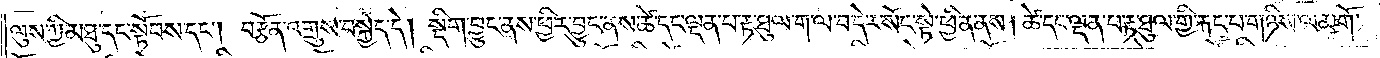ལུས་ཀྱི་མཐུ་དང་སྟོབས་དང༌། བརྩོན་འགྲུས་བསྐྱེད་དེ། སྡིག་བྱུང་ནས་ཕྱིར་བྱུང་ནས་ཚེ་དང་ལྡན་པ་རྟ་ཐུལ་ག་ལ་བ་དེར་སོང་སྟེ་ཕྱིན་ནས། ཚེ་དང་ལྡན་པ་རྟ་ཐུལ་གྱི་རྐང་པ་གཉིས་ལ་མགོ་
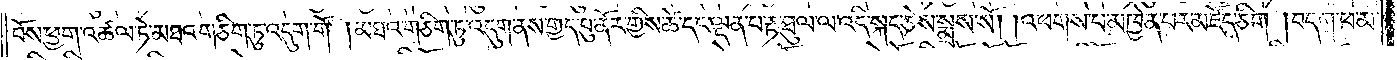བོས་ཕྱག་འཚལ་ཏེ་མཐའ་གཅིག་ཏུ་འདུག་གོ །མཐའ་གཅིག་ཏུ་འདུག་ནས་གྱད་བུ་ནོར་གྱིས་ཚེ་དང་ལྡན་པ་རྟ་ཐུལ་ལ་འདི་སྐད་ཅེས་སྨྲས་སོ། །འཕགས་པ་མཁྱེན་པར་མཛོད་ཅིག །བདག་ཕ་མ་
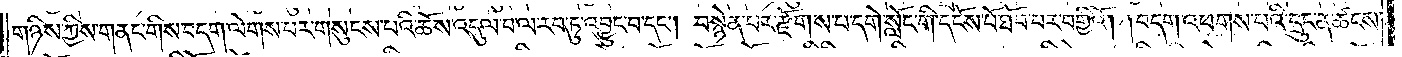གཉིས་ཀྱིས་གནང་གིས་བདག་ལེགས་པར་གསུངས་པའི་ཆོས་འདུལ་བ་ལ་རབ་ཏུ་འབྱུང་བ་དང༌། བསྙེན་པར་རྫོགས་པ་དགེ་སློང་གི་དངོས་པོ་ཐོབ་པར་བགྱིའོ། །བདག་འཕགས་པའི་དྲུང་ན་ཚངས་
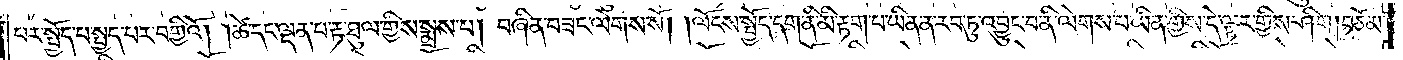པར་སྤྱོད་པ་སྤྱད་པར་བགྱིའོ། །ཚེ་དང་ལྡན་པ་རྟ་ཐུལ་གྱིས་སྨྲས་པ། བཞིན་བཟང་ལེགས་སོ། །ལོངས་སྤྱོད་དག་ནི་མི་རྟག་པ་ཡིན་ན་རབ་ཏུ་འབྱུང་བ་ནི་ལེགས་པ་ཡིན་གྱིས་དེ་ལྟར་གྱིས་ཤིག །བཅོམ་
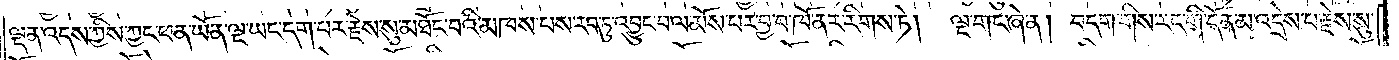ལྡན་འདས་ཀྱིས་ཀྱང་ཕན་ཡོན་ལྔ་ཡང་དག་པར་རྗེས་སུ་མཐོང་བའི་མཁས་པས་རབ་ཏུ་འབྱུང་བ་ལ་མོས་པར་བྱ་བ་ཁོ་ནར་རིགས་ཏེ། ལྔ་གང་ཞེ་ན། བདག་གིས་རང་གི་དོན་མ་འདྲེས་པ་རྗེས་སུ་
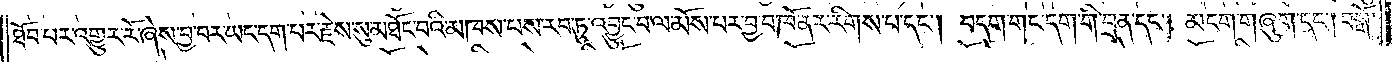ཐོབ་པར་འགྱུར་རོ་ཞེས་བྱ་བར་ཡང་དག་པར་རྗེས་སུ་མཐོང་བའི་མཁས་པས་རབ་ཏུ་འབྱུང་བ་ལ་མོས་པར་བྱ་བ་ཁོ་ནར་རིགས་པ་དང༌། བདག་གང་དག་གི་བྲན་དང༌། མངག་གཞུག་དང༌། བསྒོ་
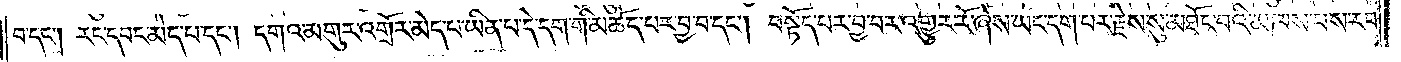བ་དང༌། རང་དབང་མེད་པ་དང༌། དགའ་མགུར་འགྲོར་མེད་པ་ཡིན་པ་དེ་དག་གི་མཆོད་པར་བྱ་བ་དང༌། བསྟོད་པར་བྱ་བར་འགྱུར་རོ་ཞེས་ཡང་དག་པར་རྗེས་སུ་མཐོང་བའི་མཁས་པས་རབ་
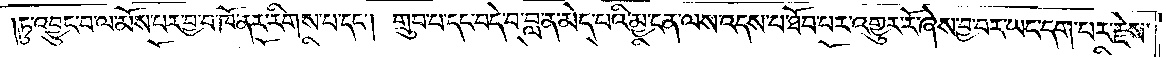ཏུ་འབྱུང་བ་ལ་མོས་པར་བྱ་བ་ཁོ་ནར་རིགས་པ་དང༌། གྲུབ་པ་དང་བདེ་བ་བླ་ན་མེད་པའི་མྱ་ངན་ལས་འདས་པ་ཐོབ་པར་འགྱུར་རོ་ཞེས་བྱ་བར་ཡང་དག་པར་རྗེས་
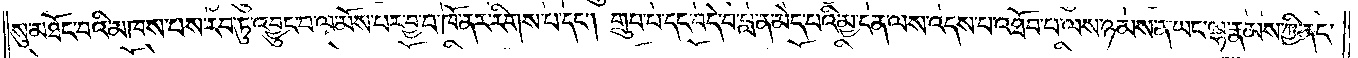སུ་མཐོང་བའི་མཁས་པས་རབ་ཏུ་འབྱུང་བ་ལ་མོས་པར་བྱ་བ་ཁོ་ནར་རིགས་པ་དང༌། གྲུབ་པ་དང་བདེ་བ་བླ་ན་མེད་པའི་མྱ་ངན་ལས་འདས་པ་འཐོབ་པ་ལས་ཉམས་ན་ཡང་ལྷ་རྣམས་ཀྱི་ནང་
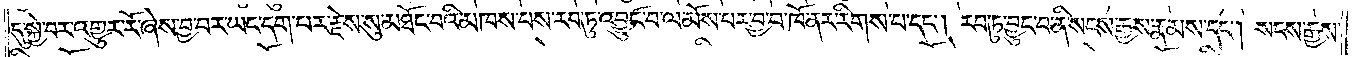དུ་སྐྱེ་བར་འགྱུར་རོ་ཞེས་བྱ་བར་ཡང་དག་པར་རྗེས་སུ་མཐོང་བའི་མཁས་པས་རབ་ཏུ་འབྱུང་བ་ལ་མོས་པར་བྱ་བ་ཁོ་ནར་རིགས་པ་དང༌། རབ་ཏུ་བྱུང་བ་ནི་སངས་རྒྱས་རྣམས་དང༌། སངས་རྒྱས་
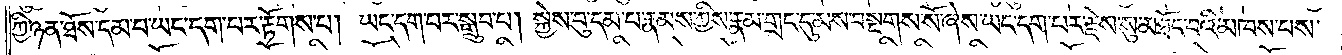ཀྱི་ཉན་ཐོས་དམ་པ་ཡང་དག་པར་རྟོགས་པ། ཡང་དག་པར་སྒྲུབ་པ། སྐྱེས་བུ་དམ་པ་རྣམས་ཀྱིས་རྣམ་གྲང་དུ་མས་བསྔགས་སོ་ཞེས་ཡང་དག་པར་རྗེས་སུ་མཐོང་བའི་མཁས་པས་
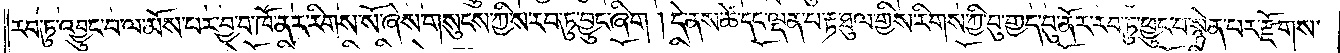རབ་ཏུ་འབྱུང་བ་ལ་མོས་པར་བྱ་བ་ཁོ་ནར་རིགས་སོ་ཞེས་གསུངས་ཀྱིས་རབ་ཏུ་བྱུང་ཞིག །དེ་ནས་ཚེ་དང་ལྡན་པ་རྟ་ཐུལ་གྱིས་རིགས་ཀྱི་བུ་གྱད་བུ་ནོར་རབ་ཏུ་ཕྱུང་བ་སྙེན་པར་རྫོགས་
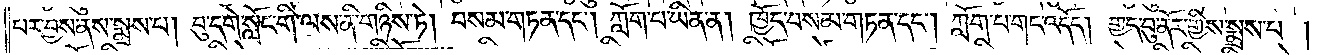པར་བྱས་ནས་སྨྲས་པ། བུ་དགེ་སློང་གི་ལས་ནི་གཉིས་ཏེ། བསམ་གཏན་དང༌། ཀློག་པ་ཡིན་ན། ཁྱོད་བསམ་གཏན་དང༌། ཀློག་པ་གང་འདོད། གྱད་བུ་ནོར་གྱིས་སྨྲས་པ།
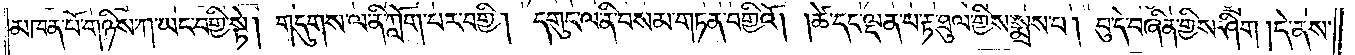མཁན་པོ་གཉིས་ཀ་ཡང་བགྱི་སྟེ། གདུགས་ལ་ནི་ཀློག་པར་བགྱི། དགུང་ལ་ནི་བསམ་གཏན་བགྱིའོ། །ཚེ་དང་ལྡན་པ་རྟ་ཐུལ་གྱིས་སྨྲས་པ། བུ་དེ་བཞིན་གྱིས་ཤིག །དེ་ནས་
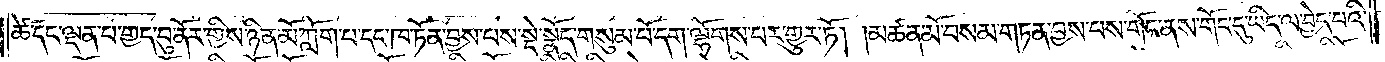ཚེ་དང་ལྡན་པ་གྱད་བུ་ནོར་གྱིས་ཉིན་མོ་ཀློག་པ་དང་ཁ་ཏོན་བྱས་པས་སྡེ་སྣོད་གསུམ་པོ་དག་ལྷོགས་པར་གྱུར་ཏོ། །མཚན་མོ་བསམ་གཏན་བྱས་པས་གོང་ནས་གོང་དུ་ཡིད་ལ་བྱེད་པའི་
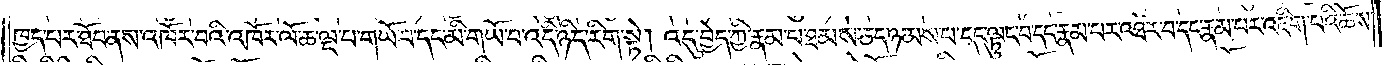ཁྱད་པར་ཐོབ་ནས་འཁོར་བའི་འཁོར་ལོ་ཆ་ལྔ་པ་གཡོ་བ་དང་མི་གཡོ་བ་འདི་ཉིད་རིག་སྟེ། འདུ་བྱེད་ཀྱི་རྣམ་པ་ཐམས་ཅད་ཉམས་པ་དང་ལྟུང་བ་དང་རྣམ་པར་འཐོར་བ་དང་རྣམ་པར་འཇིག་པའི་ཆོས་
